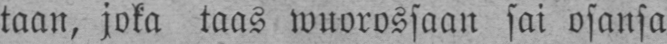taan, joka taas wuorossaan sai osansa
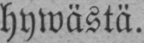hywästä.
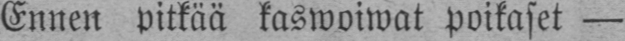Ennen pitkää kaswoiwat poikaset—
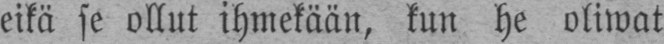eikä se ollut ihmekään, kun he oliwat
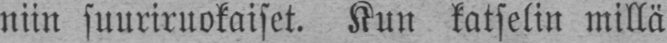niin suuriruokaiset. Kun katselin millä
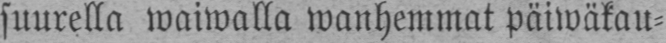suurella waiwalla wanhemmat päiwäkau-
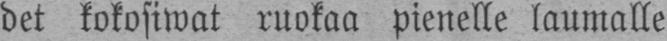det kokosiwat ruokaa pienelle laumalle
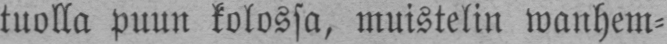tuolla puun kolossa, muistelin wanhem-
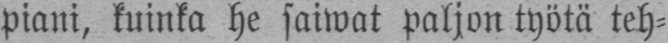piani, kuinka he saiwat paljon työtä teh-
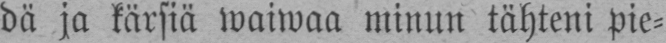dä ja kärsiä waiwaa minun tähteni pie-
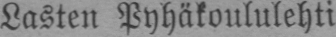Lasten Pyhäkoululehti.
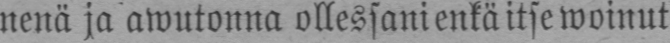nenä ja awutonna ollessani enkä itse woinut
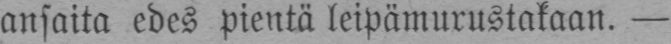ansaita edes pientä leipämurustakaan. —
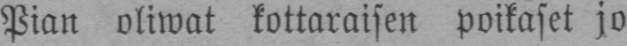Pian oliwat kottaraisen poikaset jo
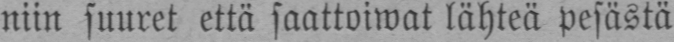niin suuret että saattoiwat lähteä pesästä
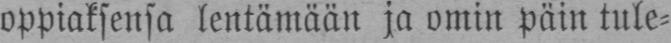oppiaksensa lentämään ja omin päin tule-
